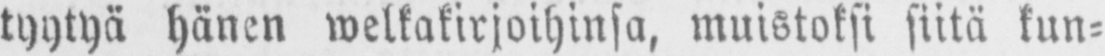tyytyä hänen welkakirjoihinsa, muistoksi siitä kun-
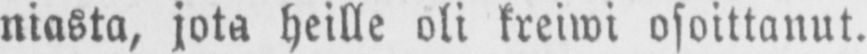niasta, jota heille oli kreiwi osoittanut.
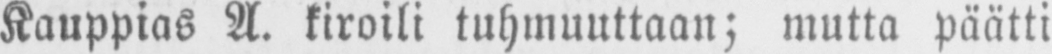Kauppias A. kiroili tuhmuuttaan; mutta päätti
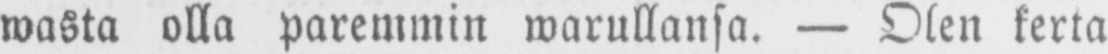wasta olla paremmin warullansa. — Olen kerta
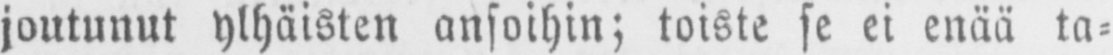joutunut ylhäisten ansoihin; toiste se ei enää ta-
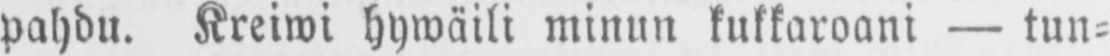pahdu. Kreiwi hywäili minun kukkaroani — tun-
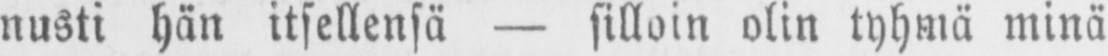nusti hän itsellensä — silloin olin tyhmä minä
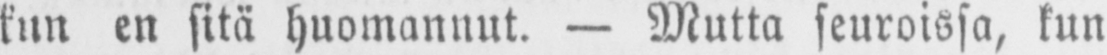kun en sitä huomannut. — Mutta seuroissa, kun
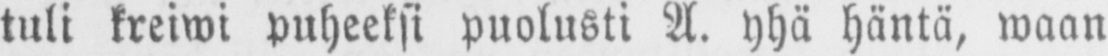tuli kreiwi puheeksi puolusti A. yhä häntä, waan
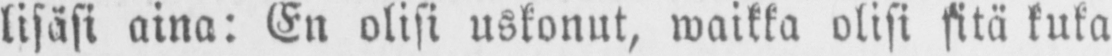lisäsi aina: En olisi uskonut, waikka olisi sitä kuka
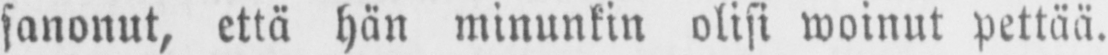sanonut, että hän minunkin olisi woinut pettää.
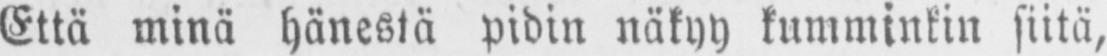Että minä hänestä pidin näkyy kumminkin siitä,
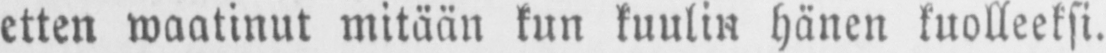etten waatinut mitään kun kuulin hänen kuolleeksi.
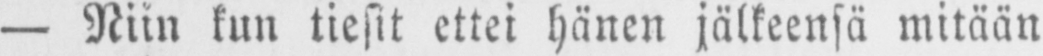— Niin kun tiesit ettei hänen jälkeensä mitään
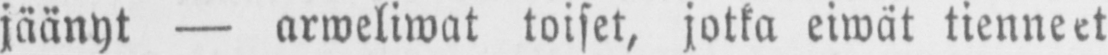jäänyt — arweliwat toiset, jotka eiwät tienneet
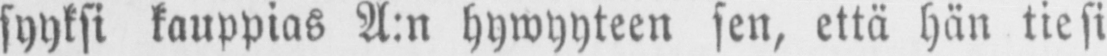syyksi kauppias A:n hywyyteen sen, että hän tiesi
